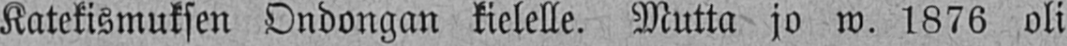Katekismuksen Ondongan kielelle. Mutta jo w. 1876 oli
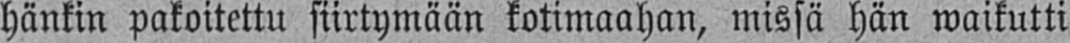hänkin pakoitettu siirtymään kotimaahan, missä hän waikutti
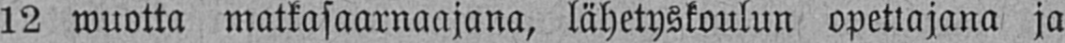12 wuotta matkasaarnaajana, lähetyskoulun opettajana ja
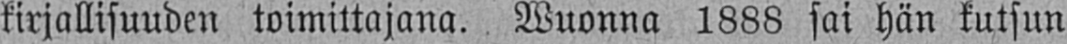kirjallisuuden toimittajana. Wuonna 1888 sai hän kutsun
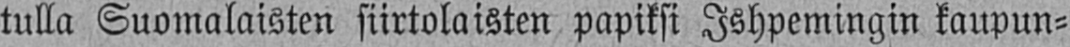tulla Suomalaisten siirtolaisten papiksi Ishpemingin kaupun-
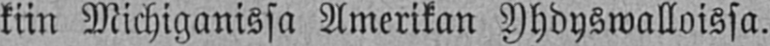kiin Michiganissa Amerikan Yhdyswalloissa.
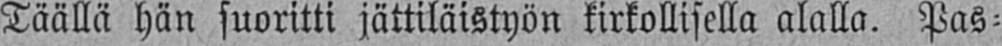Täällä hän suoritti jättiläistyön kirkollisella alalla. Pas-
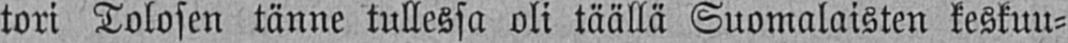tori Tolosen tänne tullessa oli täällä Suomalaisten keskuu-
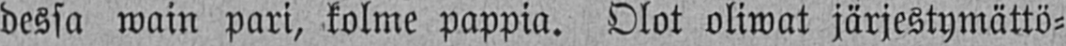dessa wain pari, kolme pappia. Olot oliwat järjestymättö-
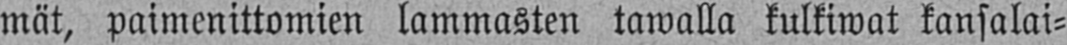mät, paimenittomien lammasten tawalla kulkiwat kansalai-
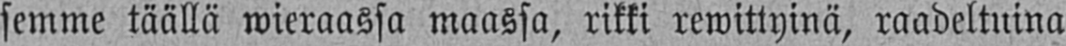semme täällä wieraassa maassa, rikki rewittyinä, raadeltuina
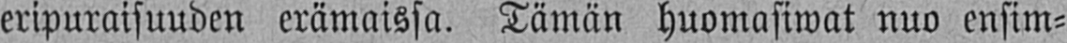eripuraisuuden erämaissa. Tämän huomasiwat nuo ensim-
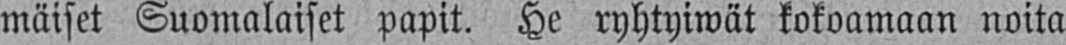mäiset Suomalaiset papit. He ryhtyiwät kokoamaan noita
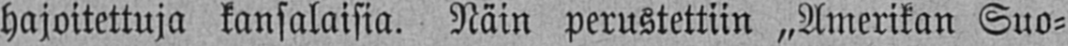hajoitettuja kansalaisia. Näin perustettiin „Amerikan Suo-
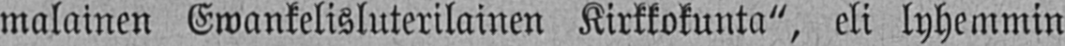malainen Ewankelisluterilainen Kirkkokunta", eli lyhemmin
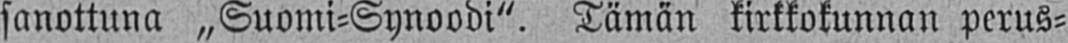sanottuna „Suomi-Synoodi". Tämän kirkkokunnan perus-
